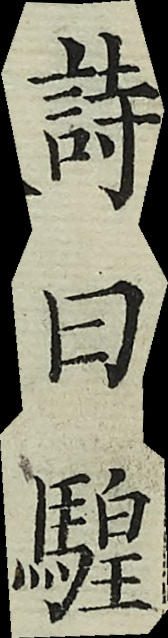詩曰騜
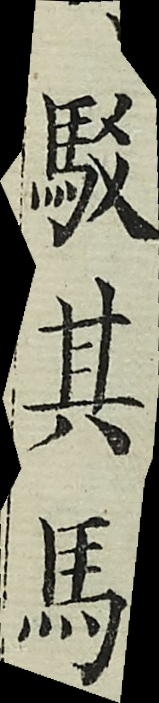駁其馬
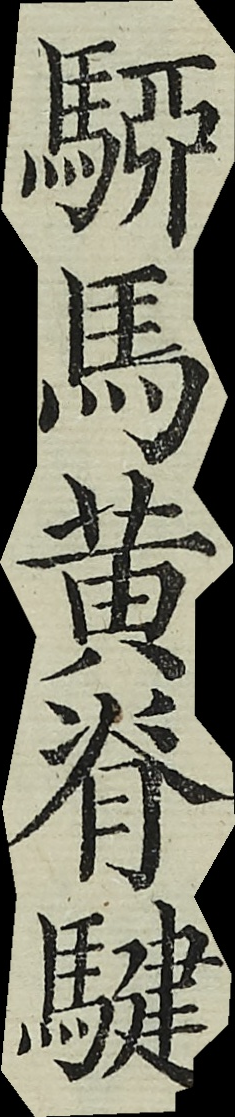駵馬黃脊騝
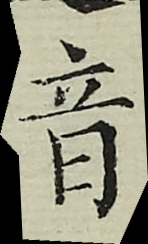音
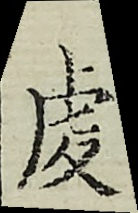虔
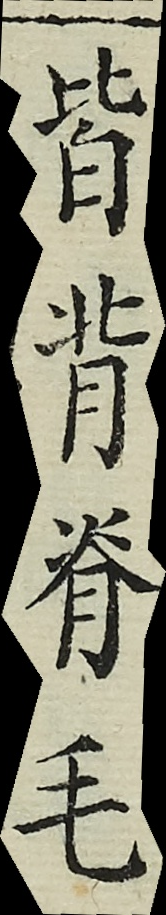皆背脊毛
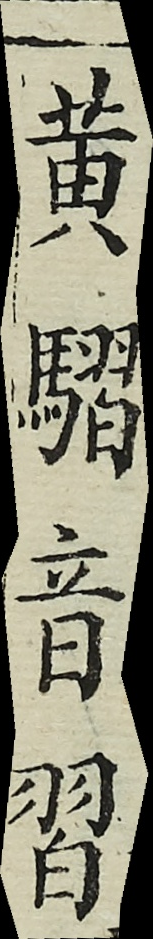黃騽音習
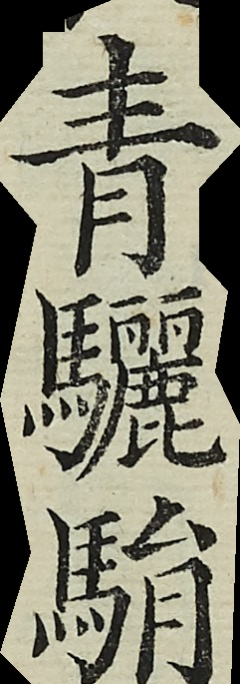青驪駽
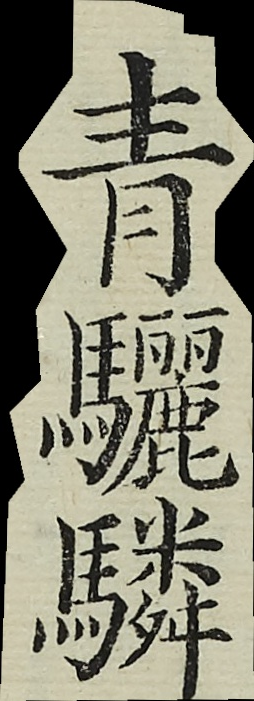青驪驎
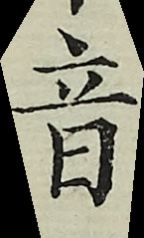音
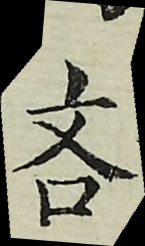吝
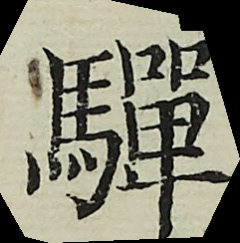驒
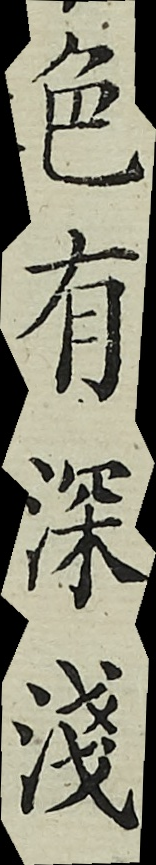色有深淺
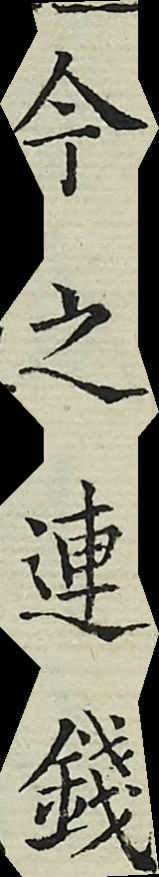今之連錢
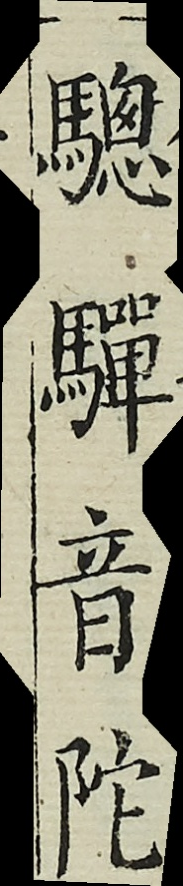驄驒音陀
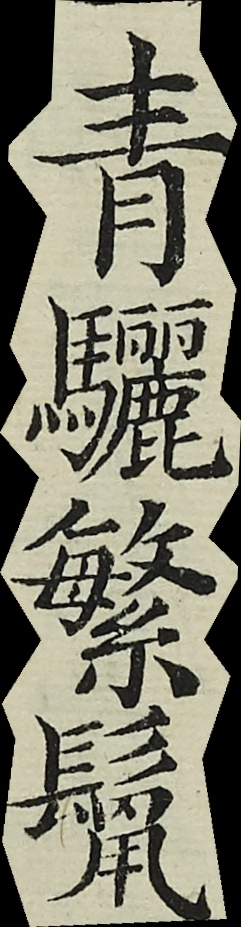青驪繁鬣
